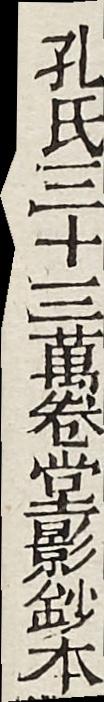孔氏三十三萬卷堂影鈔本
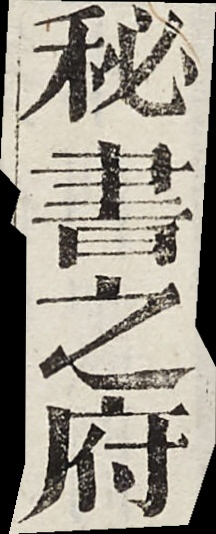秘書之府
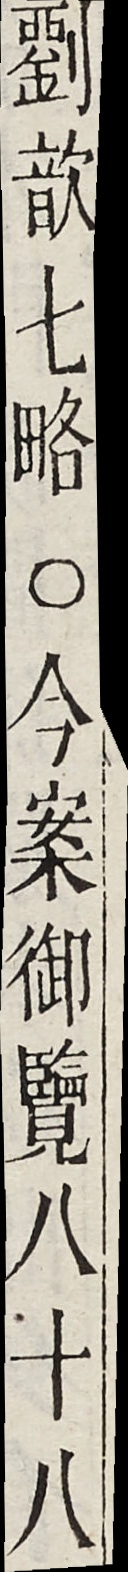劉歆七路○今案御覽八十八
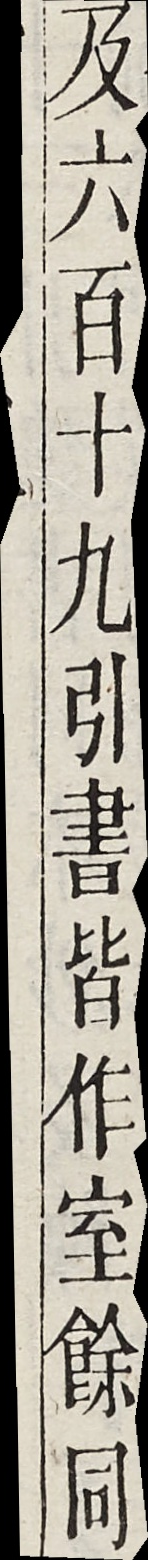及六百十九引書皆作室餘同
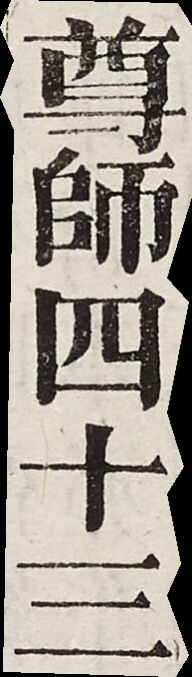尊師四十三
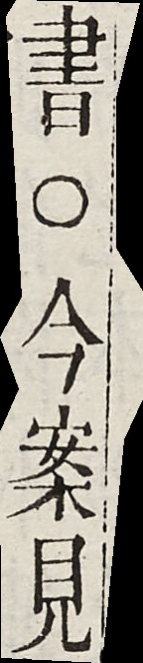書○今案見
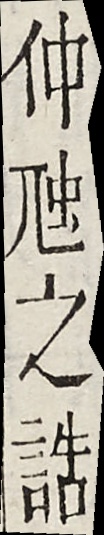仲蠶之誥
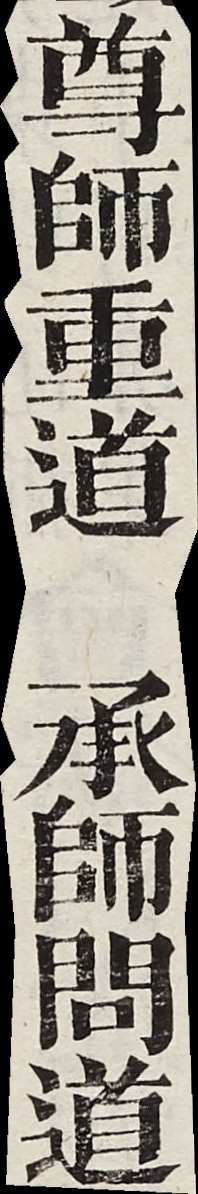尊師重道　承師問道
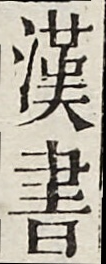漢書
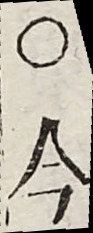○今
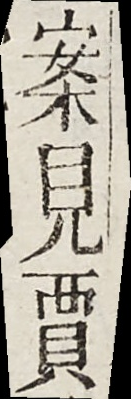案見賈
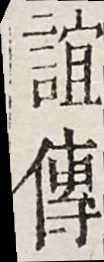誼傳
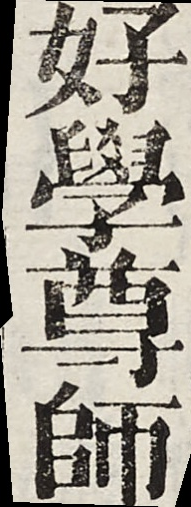好學尊師
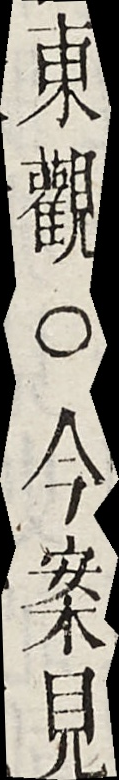東觀○今案見
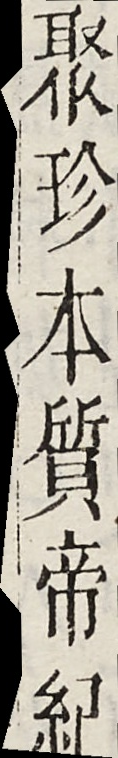聚珍本質帝紀
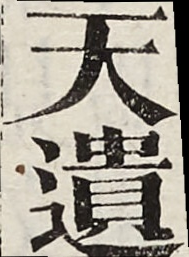天遺
